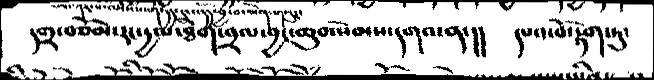དགྲ་བཅོམ་རང་དྱལ་ཐེག་བྲལ་བྱང་ཆུབ་སེམས་དགའ་ན་།།   དཔའ་བོ་རྟག་ཏུ་
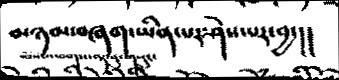མཉམ་བཞག་ཡིན་པར་ཤེས་པར་བྱ་།།
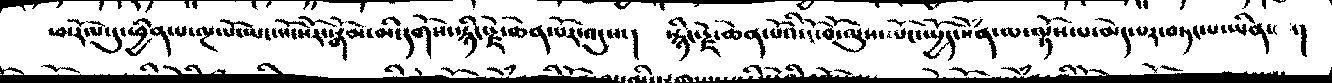ཕ་རོལ་དུ་ཕྱིན་པ་ལྔ་པོ་ཡང་སོ་སོར་སྒོམ་མི་དགོས་སྙིད་རྗེ་ཆེན་པོར་འདུས་།   སྙིང་རྗེ་ཆེན་པའི་ངོ་བོ་ལུས་ལོང་ཡྱོད་སེཾན་ལ་ལྟོས་པ་མེད་པར་བཏང་པ་ཡིན་ ་།
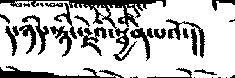དེ་ཉིད་སྙིང་རྗེའི་སྦྱིན་པའོ་།།
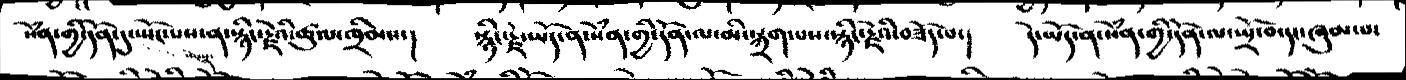སེཾན་གྱི་དོན་དུ་ཡོང་པས་ན་སྙིང་རྗེའི་ཚུལ་ཁྲིམས་།    སྙིང་རྗེ་ཡོད་ན་སེཾན་གྱི་དོན་ལ་མི་སྐྲག་པས་སྙིང་རྗེའི་བཟོད་པ་།   དེ་ཡོད་ན་སེཾན་གྱི་དོན་ལ་ཡྲོ་བོ་དང་ཞུམ་པ་
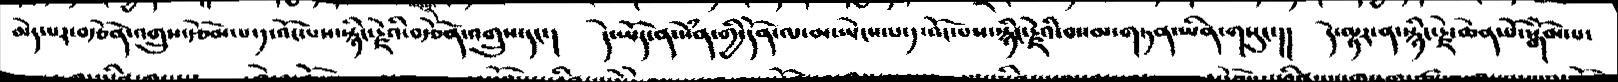མེད་པར་བརྩོན་འགྲུས་རྩོམ་པ་༡་འོང་པས་སྙིང་རྗེའི་བརྩོན་འགྲུས་དང་།  དེ་ཡོད་ན་སེཾས་གྱི་དོན་ལ་མ་ཡེངས་པ་༡་འོང་པས་རྙིང་རྗེའི་བསམ་གཏན་ཡིན་གསུང་།།   དེ་ལྟར་ན་སྙིང་རྗེ་ཆེན་པོ་སྒོམ་པ་
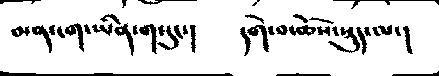མན་ངག་ཡིན་གསུང་།   དགེ་བ་ཆོས་སྡུད་ལ་།
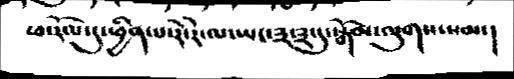ཕ་རོལ་དུ་ཕྱིན་པ་རེ་རེ་ལ་ཡང་༣་༣་དུ་སྒོམ་ལུགས་སམ་།
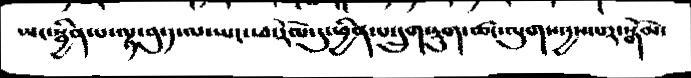ཡང་སྦྱིན་པ་ལྟ་བུ་༡་ལ་ཡང་ཕ་རོལ་དུ་ཕྱིན་པ་དྲུག་སྡུག་ཚང་ལུགས་དྱས་པར་སྒོམ་
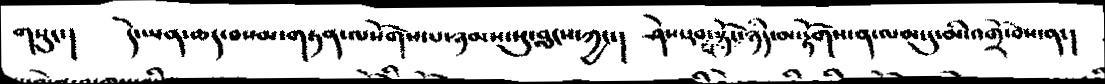གསུང་།  དེ་ཡན་ཆད་བསམ་གཏན་ལསོགས་པ་ཉམས་སུ་བླངས་ཀྱང་།  ཤེས་རབ་པ་སྟོང་ཉིད་མ་རྟོགས་ན་ལམ་དུ་མི་འགྲོ་ཅེས་ན་།
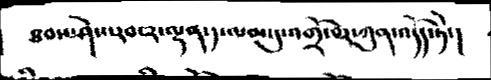ཐབས་ཤེས་རབ་༢་ལྡན་༡་ལམ་དུ་འགྲོ་བར་ཀུན་འདོད་ཏེ་།
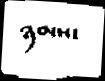ཉམས་
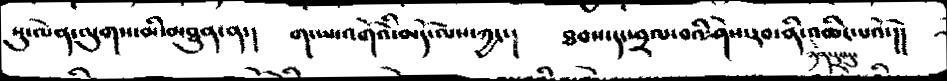སུ་ལེན་ལུགས་མི་མཐུན་ན་།   ག་ཡ་འགོའི་མདོ་ལས་ཀྱང་།   ཐབས་དང་བྲལ་བའི་ཤེས་རབ་ནི་འཆིང་པའོ་།།
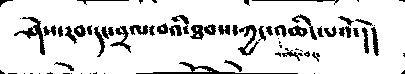ཤེས་རབ་དང་བྲལ་བའི་ཐབས་ཀྱང་འཆིང་པའོ་།།
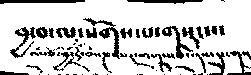བྱ་བ་ལ་སོགས་པ་གསུངས་
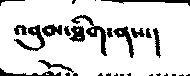འབུམ་ཐིག་ནས་།
